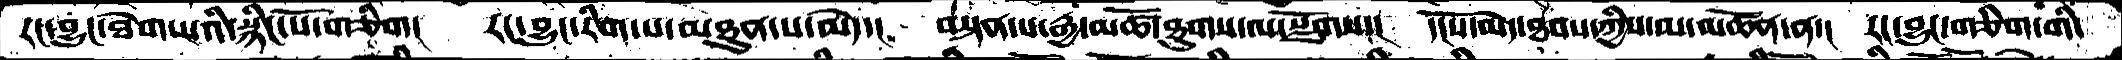རང་བྱུང་ཐེག་པའི་སྙིང་པོ་གཅིག།  རང་བྱུང་རིག་པ་མཐུན་པ་མེད་།   བསྟན་པ་རྒྱ་མཚོ་ཐུགས་ལ་སྫོགས་།   དངོས་མེད་ཐབས་ཀྱིས་མ་མཚོན་ན་།   རང་བྱུང་གཅིག་གི་
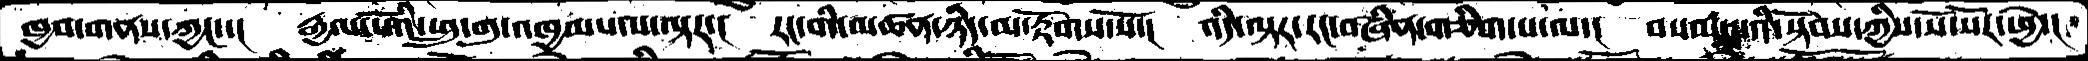ཁྱབ་གནས་ཀྱང་་།   རྒྱལ་པོའི་ཕྲུ་གུ་འཁྱམས་པ་ལྟར་།   རང་གི་མཚན་ཉིད་མ་རྟོགས་སོ་།   འདི་ལྟར་རང་བཞིན་གཅིག་པ་ལ་།  བསམ་པའི་སྟོབས་ཀྱིས་སོ་སོར་ཕྱེ་།
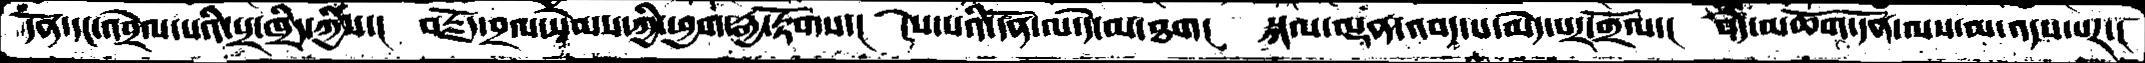དོན་དང་འབྲེལ་པའི་པྲ་ཁྲིད་ཀྱིས་།  བརྗོད་བྲལ་སེམས་ཀྱི་ཕྱག་རྒྱ་རྟོགས་།  ངེས་པའི་དོན་ལ་དེ་མ་ཐག།  སྐལ་ལྡན་འབད་པ་མེད་པར་གྲོལ་།   བདེ་མཆོག་དོན་ལས་མ་འདས་པར་།
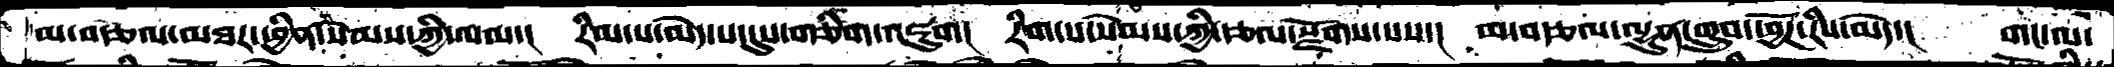མ་བརྩལ་མཐར་ཕྱིན་སེམས་ཀྱི་ལམ་། རིམ་པ་མེད་པ་དུས་གཅིག་འཇུག། རིག་པ་སེམས་ཀྱི་རྩལ་རྫོགས་པས་། མ་བརྩལ་ལྷུན་གྲུབ་ཕྱོཌ་རིས་མེད་། གང་ལ་
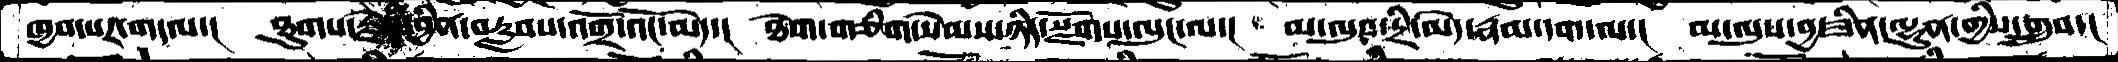ཁྱབ་པར་གདལ་།   ཐུགས་རྗེའི་བྱིན་བརླབས་འགྲོ་འོང་མེད་།   ཐེག་གཅིག་སེམས་ཉིད་སྫོགས་ལུང་ལ་།  མ་ལུས་དྲི་མེད་རྣམ་དག་ལ་།  མ་ལུས་བྱ་ཟིན་ལྷུན་གྱིས་གྲུབ་།
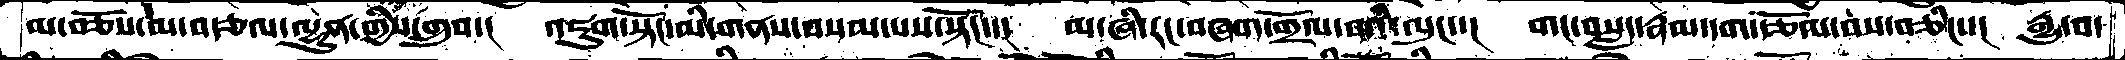མ་བཅོས་མ་བརྩལ་ལྷུན་གྱིས་གྲུབ་།  འཇུག་སྟོང་མི་གནས་བསམ་པས་སྟོང་་།  མ་གཞི་རང་བཞག་གྲོལ་བའི་ལུང་་།   གང་བསླད་རྣམ་དག་རྩོལ་བས་བཅིངས་།  རྒྱུ་བ་
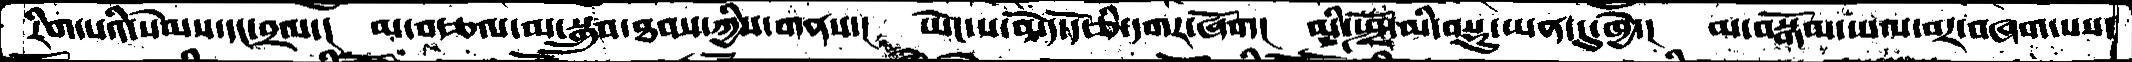རིག་པའི་སེམས་དང་བྲལ་།   མ་བརྩལ་མ་སྒྲུབ་ཐབས་ཀྱིས་གནས་།   ཡེང་ས་མེད་དོ་ཅི་དགར་ཞོག།   མི་སྤྲོ་མི་བསྡུ་ཡན་དུ་ཁྱེ་།  མ་བསྒོམ་དཔལ་བར་བཞག་པས་
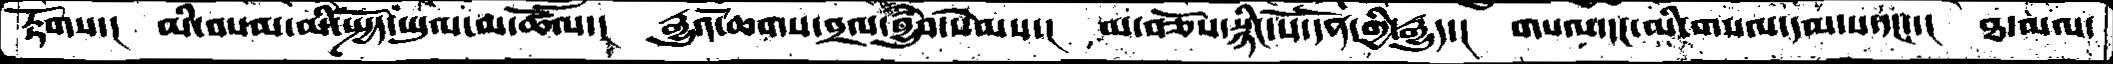རྟོགས་།  མི་བསམ་མི་སྤྱོད་ཡུལ་མ་ཚོལ་།   རྒྱུའོ་ཆགས་བྲལ་བྱུཾབ་སེམས་།   མ་བཅོས་སྙིང་པོ་དོན་གྱི་རྒྱུད་།  གསལ་དང་མི་གསལ་དམ་པ་དང་་།  ཐ་མལ་
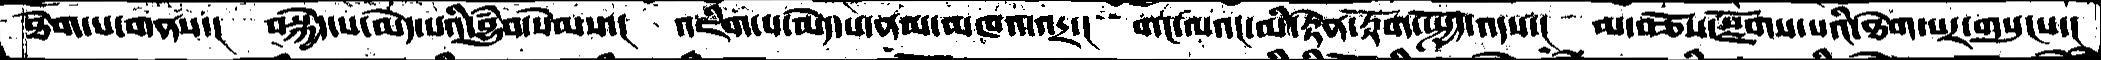ཐེག་པ་གནས་།  བསྐྱེད་པ་མེད་པའི་བྱུཾབ་སེམས་།  འཇིག་པ་མེད་པ་ནམ་མཁའ་འདྲ་།  གང་ལའང་མི་རྟེན་རྟོག་སྤྱོད་འདས་།  མ་བཅོས་སྫོགས་པའི་ཐེག་པར་གསུངས་།
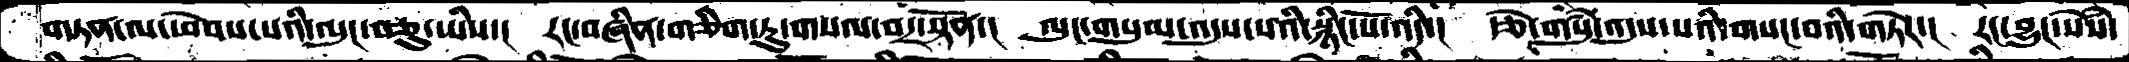གཏན་ལ་ཕེབས་པའི་ལུང་བཅུ་ཡིས་།   རང་བཞིན་གཅིག་ཏུ་གསལ་བར་སྟོན་།  ལུང་གསུམ་འདུས་པའི་སྙིང་པོ་འདི་།  རྩེ་གསུཾ་འདུས་པའི་གསང་བའི་གཏེར་།  རང་བྱུང་སེཾས་
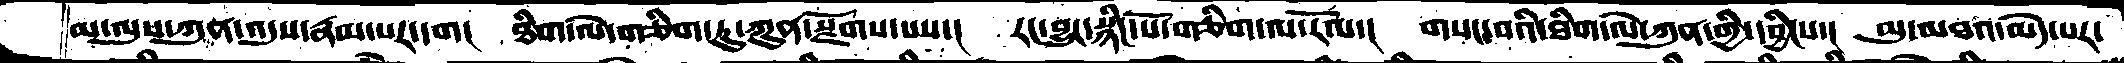མ་ལུས་ཀུན་འདུས་རྣམ་པར་དག།   ཐིག་ལེ་གཅིག་ཏུ་ཀུན་སྫོགས་པས་།   རང་བྱུང་སྙིང་པོ་གཅིག་ལ་རོལ་།   གསང་བའི་ཐིག་ལེ་ཀུན་གྱི་དབྱིངས་།   མུ་མཐའ་མེད་པར་
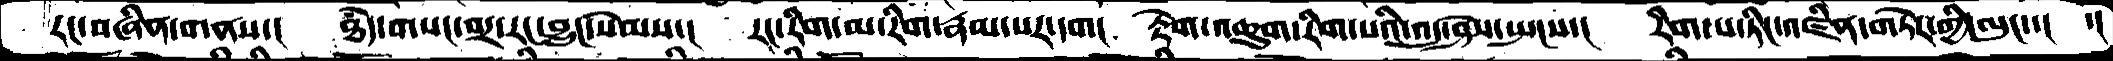རང་བཞིན་གནས་།   ཐཾད་གསང་བར་རང་བྱུང་སེམས་།   རང་རིག་མ་རིག་རྣམ་པར་དག།   རྟེག་འཆུག་རིག་པའི་འདུ་ཤེས་སྤངས་།   རིག་པ་ཏིང་འཛིན་གཏེར་གྱི་ལུང་་།   ་།
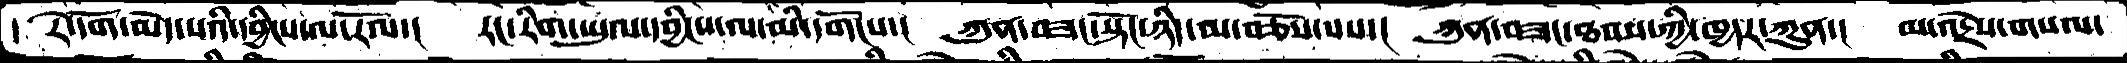་ རེ་དོག་མེད་པའི་དབྱིངས་ལ་རོལ་།   རང་རིག་ཡུལ་དབྱིངས་ལ་མི་དགོངས་།   ཀུན་བཟང་སྟོང་ཉིད་མ་བཅོས་པས་།   ཀུན་བཟང་ཐབས་ཀྱི་ཁྱདར་ཀུན་།   མ་འདྲེས་གསལ་
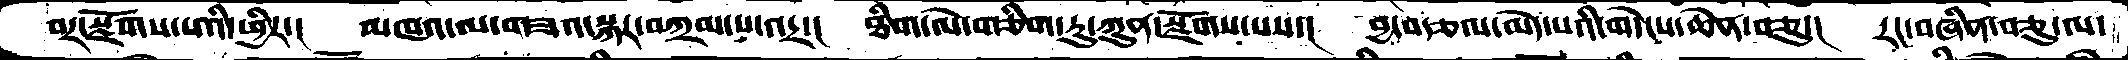བར་སྫོགས་པའི་ཕྱིར་།   མཁའ་ལ་གཟའ་སྐར་བཀྲམ་པ་འདྲ་།   ཐིག་ལེ་གཅིག་ཏུ་ཀུན་སྫོགས་པས་།   བྱ་བརྩལ་མེད་པའི་གདེངས་ཆེན་བཅུ་།   རང་བཞིན་བཅུ་ལ་
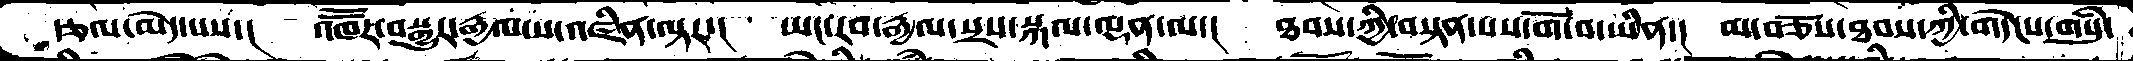རྩལ་མེད་པས་།  འཁཽར་བསྒྱུར་རྒྱལ་ས་འཛིན་ལྟར་།  ཡང་རབ་རྒྱལ་སྲས་སྐལ་ལྡན་ལ་།  ཐབས་ཀྱི་བསྟན་པས་གོ་བ་ཡིན་།  མ་བཅོས་ཐབས་ཀྱི་གདེངས་གསུཾ་
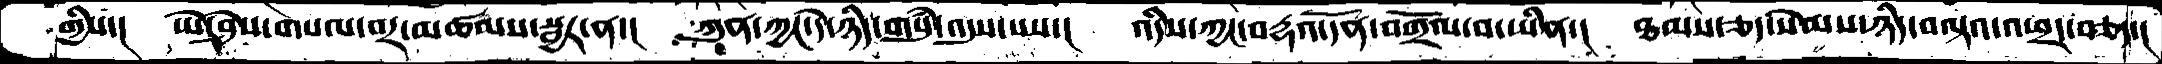གྱིས་།  ཡེ་ཤེས་གསལ་བར་མཚམས་སྦྱར་ན་།  ཀུན་ཀྱང་དེ་ཉིད་གསུཾ་འདུས་པས་།  འདིས་ཀྱང་བརྡའ་དོན་བགྲོལ་བ་ཡིན་།  ཐམས་ཅད་སེམས་ཉིད་བལྟའ་འཕྲད་བཅད་།
